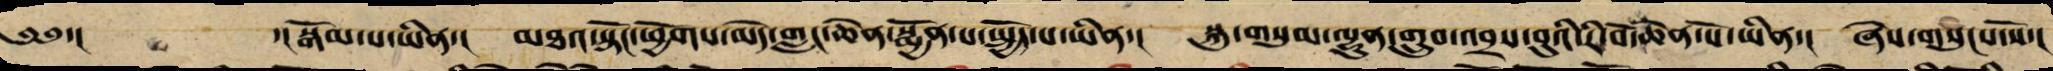༄༅་།  ་།སྒོམ་པ་ཡིན་། མཐའ་སྟོང་ཕྱོགས་མེད་གླང་ཆེན་སྨྱོན་པ་སྤྱོད་པ་ཡིན་། སྐུ་གསུམ་ལྷུན་གྲུབ་འབྲས་བུའི་རི་བོ་ཆེན་པོ་ཡིན་། ཞེས་གསུངས་སོ་།
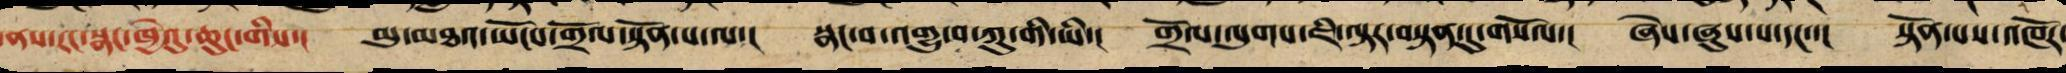དེ་ནས་རང་སྣང་ཁྱེའུ་ཆུང་གིས་། མུ་མཐའ་ཡོངས་གྲོལ་སྟོན་པ་ལ་། སྣང་བ་འགྱུ་བ་ཀུ་གི་ཡི་། གྲོལ་ལུགས་ཇི་ལྟར་བསྟན་དུ་གསོལ་། ཞེས་ཞུས་པ་དང་་། སྟོན་པས་འཁོར་
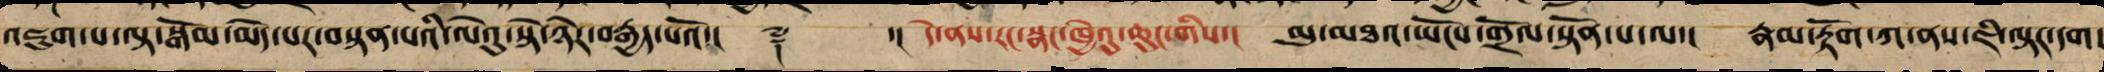འཇུག་པ་ལྟ་སྒོམ་མེད་པར་བསྟན་པའི་ལེའུ་སྟེ་ཉེར་བརྒྱད་པའོ་།། ༈ ་།། དེ་ནས་རང་སྣང་ཁྱེའུ་ཆུང་གིས་། མུ་མཐའ་ཡོངས་གྲོལ་སྟོན་པ་ལ་། རྣམ་རྟོག་ཀ་ནས་ཇི་ལྟར་དག་
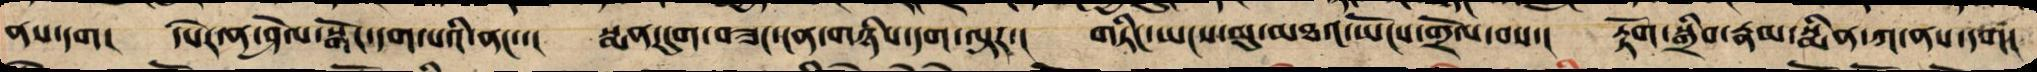ནས་དག། དཔེར་ན་ཤེལ་སྒོང་དག་པའི་ནང་་། སྨན་དུག་བཟང་ངན་གཉིས་དག་ལྟར་། གཏིང་ཡངས་མུ་མཐའ་ཡོངས་གྲོལ་བས་། རྟོག་སྒྲིབ་རྣམ་སྨིན་ཀ་ནས་དག།
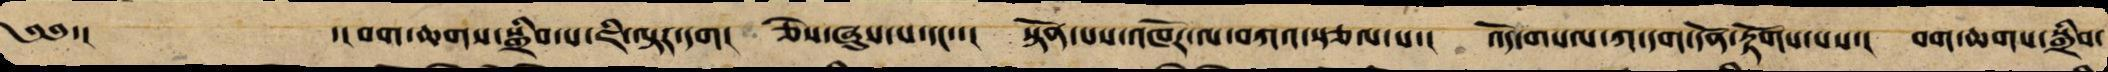༄༅་།   ་།བག་ཆགས་སྒྲིབ་པ་ཇི་ལྟར་དག། ཅེས་ཞུས་པ་དང་་། སྟོན་པས་འཁོར་ལ་བཀའ་སྩལ་པ་། འོད་གསལ་ཀ་དག་དོན་རྟོགས་པས་། བག་ཆགས་སྒྲིབ་
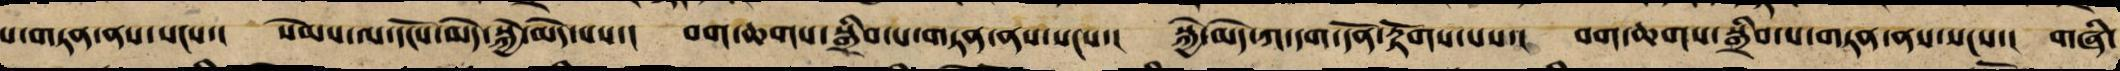པ་གཏན་ནས་སངས་། སེམས་ལ་དངོས་མེད་སྐྱེ་མེད་པས་། བག་ཆགས་སྒྲིབ་པ་གཏན་ནས་སངས་། སྐྱེ་མེད་ཀ་དག་དོན་རྟོགས་པས་། བག་ཆགས་སྒྲིབ་པ་གཏན་ནས་སངས་། གཞི་
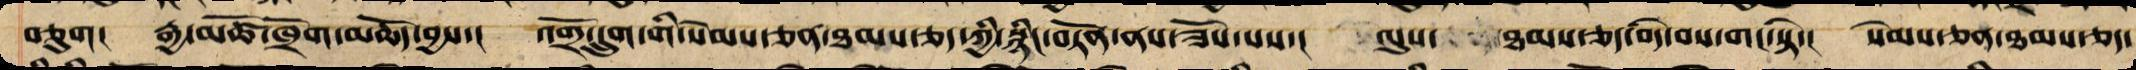བཅུག། རྒྱ་མཚོ་ཁྲོག་ཆོད་བྱས་། འགྲོ་དྲུག་གི་སེམས་ཅན་ཐམས་ཅད་ཀྱི་སྙིང་བཏོན་ནས་ཟོས་པས་། ལུས་ཐམས་ཅད་བདེ་བས་གང་སྟེ་། སེམས་ཅན་ཐམས་ཅད་
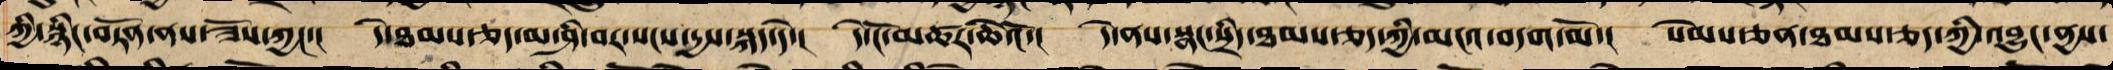ཀྱི་སྙིང་བཏོན་ནས་ཟོས་ཀྱང་། དེ་ཐམས་ཅད་མ་ཤི་བར་སངས་དྱས་སྐད་དེ་། དེ་ངོ་མཚར་ཆེའོ་། དེ་ནས་སྣང་སྲིད་ཐམས་ཅད་ཀྱི་མངའ་བདག་མོ་། སེམས་ཅན་ཐམས་ཅད་ཀྱི་འབྱུང་ནྱས་
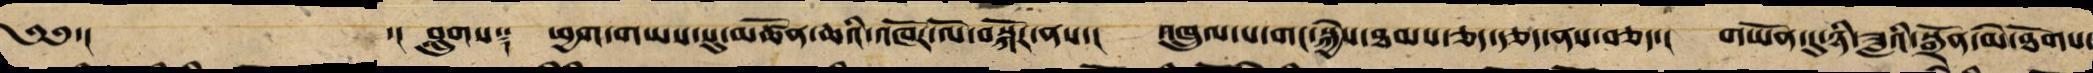༄༅་།  ་།བླུགས༑ ཕྱག་གཡས་སུ་མཚོན་ཆའི་འཁོར་ལོ་བསྐོར་ནས་། འཁྲུལ་པ་གང་སྐྱེས་ཐམས་ཅད་རྩད་ནས་བཅད་། གཡོན་དུ་ཉི་ཟླའི་སྒྲོན་མེ་ཐོགས་
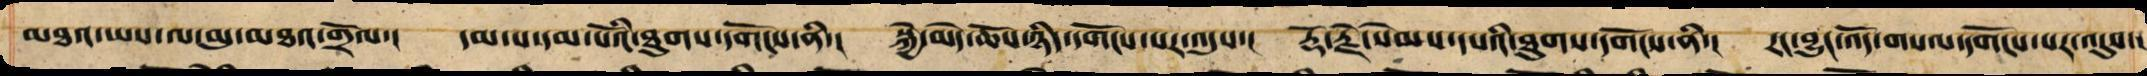མཐའ་ཡས་ལ་མུ་མཐའ་གྲོལ་། དམ་པ་དང་པོའི་ཐུགས་དགོངས་ནི་། སྐྱེ་མེད་ཆོས་ཉིད་དགོངས་པར་འདུས་། རྡོ་རྗེ་སེམས་དཔའི་ཐུགས་དགོངས་ནི་། རང་བྱུང་འོད་གསལ་དགོངས་པར་འདུས་།
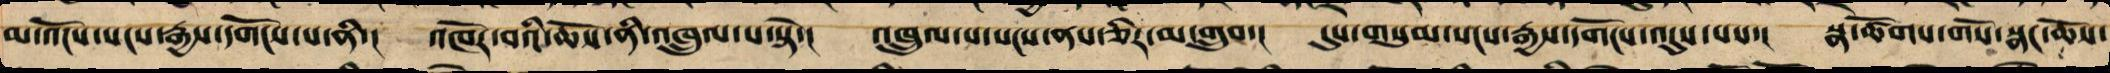མ་འོངས་སངས་རྒྱས་དགོངས་པ་ནི་། འཁོར་བའི་ཆོས་ནི་འཁྲུལ་པ་སྟེ་། འཁྲུལ་པ་སངས་ནས་ཅིར་མ་གྲུབ་། དུས་གསུམ་སངས་རྒྱས་དགོངས་འདུས་པས་། སྣ་ཚོགས་གསོ་སྣང་ཆོས་
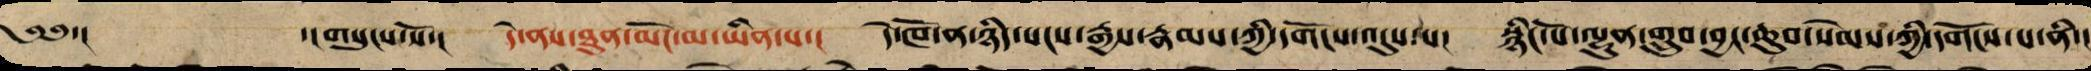༄༅་། ་།གསུངས་སོ་། དེ་ནས་ཐུན་མོང་མ་ཡིན་པ་། དེ་ཁོ་ན་ཉིད་སངས་རྒྱས་རྣམས་ཀྱི་དགོངས་པ་འདུས་པ། སྙིང་པོ་ལྷུན་གྲུབ་བྱང་ཆུབ་སེམས་ཀྱི་དགོངས་པ་ནི་།
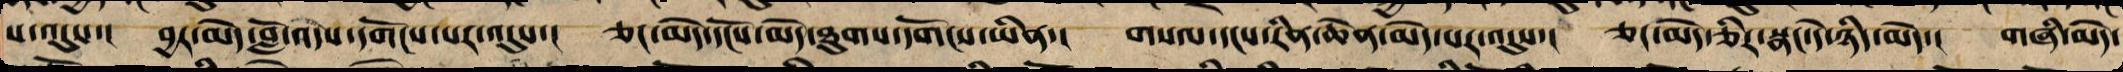ས་འདུས་། བྱར་མེད་བློ་འདས་དགོངས་པར་འདུས་། ཅང་མེད་དངོས་མེད་ཐུགས་དགོངས་ཡིན་། གསལ་དངས་རིན་ཆེན་མེད་པར་འདུས་། ཅང་མེད་ཅིར་སྣང་དེ་ཉིད་མེད་། གཞི་མེད་
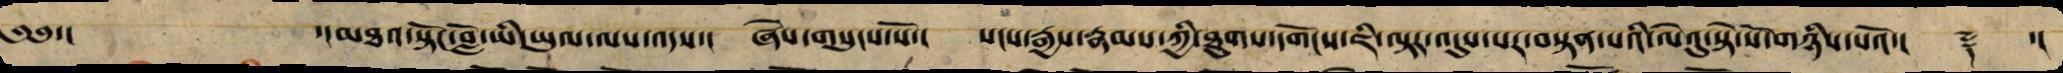༄༅་། ་།མཐའ་སྟོང་བློ་ཡི་ཡུལ་ལས་འདས་། ཞེས་གསུངས་སོ་། སངས་རྒྱས་རྣམས་ཀྱི་ཐུགས་དགོངས་ཇི་ལྟར་འདུས་པར་བསྟན་པའི་ལེའུ་སྟེ་སོ་གཉིས་པའོ་།། ༈ ་།
